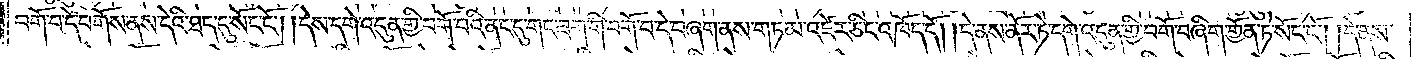བགོ་བ་དེ་བགོས་ནས་དེའི་ཐད་དུ་སོང་ངོ༌། །དེས་དགེ་འདུན་གྱི་བགོ་བའི་ནང་དུ་གང་ཟག་གི་བགོ་བ་དེ་བཞག་ནས་གཏམ་འཛེར་ཅིང་འཁོད་དོ། །དེ་ནས་ནོར་ཏེ་དགེ་འདུན་གྱི་བགོ་བ་ཞིག་གྱོན་ཏེ་སོང་ངོ༌། །དེ་ནས་
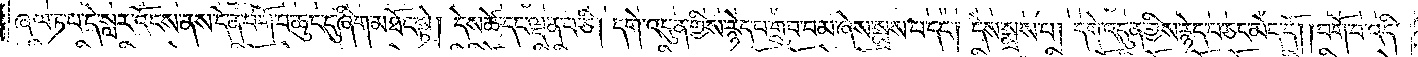ཞལ་ཏ་པ་དེ་སླར་འོངས་ནས་དེ་ན་བགོ་བ་ཆུང་ངུ་ཞིག་མཐོང་སྟེ། དེས་ཚེ་དང་ལྡན་པ་ཅི། དགེ་འདུན་གྱིས་རྙེད་པ་གྲུབ་བམ་ཞེས་སྨྲས་པ་དང༌། དེས་སྨྲས་པ། དགེ་འདུན་གྱིས་རྙེད་པ་ཅང་མེད་དོ། །བགོ་བ་འདི་
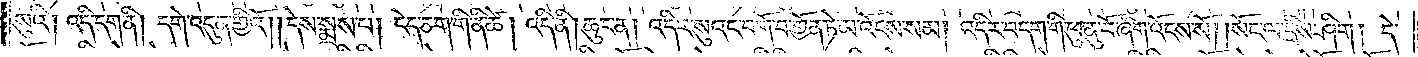སུའི། འདི་དག་ནི། དགེ་འདུན་གྱིའོ། །དེས་སྨྲས་པ། ངེད་ཅག་གི་ནི་ཚེ། འདི་ནི། ཆུང་ན། འདིར་སུའང་བགོ་བ་གྱོན་ཏེ་མ་འོངས་སམ། འདིར་བདག་གི་ཕུ་ནུ་བོ་ཞིག་འོངས་སོ། །སོང་ལ་དྲིས་ཤིག །དེ་
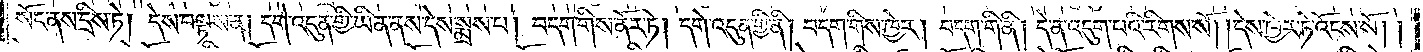སོང་ནས་དྲིས་ཏེ། དེས་བལྟས་ན། དགེ་འདུན་གྱི་ཡིན་ནས་དེས་སྨྲས་པ། བདག་གིས་ནོར་ཏེ། དགེ་འདུན་གྱི་ནི། བདག་གིས་ཁྱེར། བདག་གི་ནི། དེ་ན་འདུག་པའི་རིགས་སོ། །དེས་ཁྱེར་ཏེ་འོངས་སོ། །
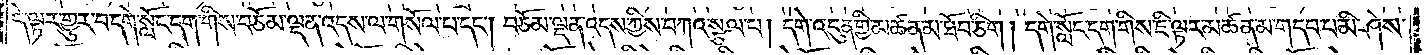དེ་ལྟར་གྱུར་པ་དགེ་སློང་དག་གིས་བཅོམ་ལྡན་འདས་ལ་གསོལ་པ་དང༌། བཅོམ་ལྡན་འདས་ཀྱིས་བཀའ་སྩལ་པ། དགེ་འདུན་གྱི་མཚན་མ་ཐོབ་ཅིག །དགེ་སློང་དག་གིས་ཇི་ལྟར་མཚན་མ་གདབ་པ་མི་ཤེས་
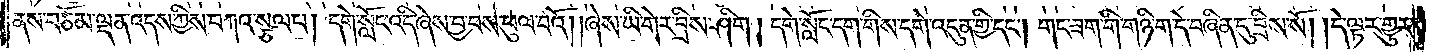ནས་བཅོམ་ལྡན་འདས་ཀྱིས་བཀའ་སྩལ་པ། དགེ་སློང་འདི་ཞེས་བྱ་བས་ཕུལ་བའོ། །ཞེས་ཡི་གེར་བྲིས་ཤིག །དགེ་སློང་དག་གིས་དགེ་འདུན་གྱི་དང༌། གང་ཟག་གི་གཉི་ག་དེ་བཞིན་དུ་བྲིས་སོ། །དེ་ལྟར་གྱུར་
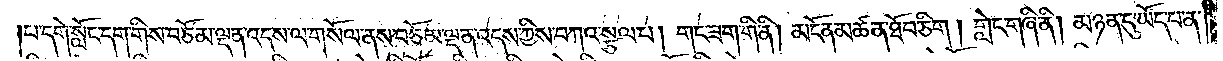པ་དགེ་སློང་དག་གིས་བཅོམ་ལྡན་འདས་ལ་གསོལ་ནས་བཅོམ་ལྡན་འདས་ཀྱིས་བཀའ་སྩལ་པ། གང་ཟག་གི་ནི། མངོན་མཚན་ཐོབ་ཅིག། གླེང་གཞི་ནི། མཉན་དུ་ཡོད་པ་ན་
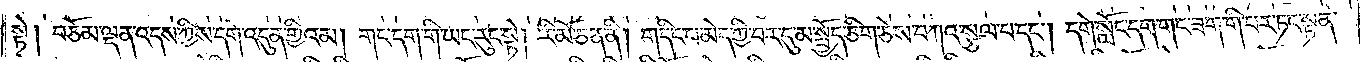སྟེ། བཅོམ་ལྡན་འདས་ཀྱིས་དགེ་འདུན་གྱིའམ། གང་དག་གི་ཡང་རུང་སྟེ། རི་མོ་ཅན་ནི། གདིང་བ་མེད་ཀྱི་བར་དུ་མ་སྤྱོད་ཅིག་ཅེས་བཀའ་སྩལ་པ་དང༌། དགེ་སློང་དག་གང་ཟག་གི་པར་ཏང་སྟན་
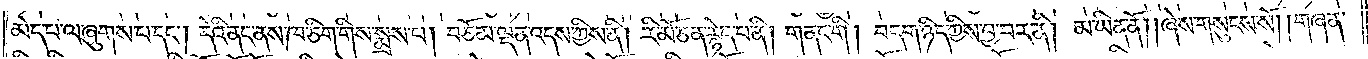མེད་པ་ལ་ཞུགས་པ་དང༌། དེའི་ནང་ནས་ཁ་ཅིག་གིས་སྨྲས་པ། བཅོམ་ལྡན་འདས་ཀྱིས་ནི། རི་མོ་ཅན་རྙེད་པ་ནི། གནང་གི། བདག་ཉིད་ཀྱིས་བྱ་བར་ནི། མ་ཡིན་ནོ། །ཞེས་གསུངས་སོ། །གཞན་
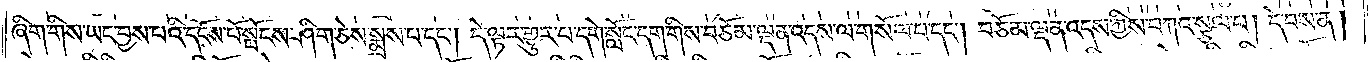ཞིག་གིས་ཡང་བྱས་པའི་དངོས་པོ་སྤོངས་ཤིག་ཅེས་སྨྲས་པ་དང༌། དེ་ལྟར་གྱུར་པ་དགེ་སློང་དག་གིས་བཅོམ་ལྡན་འདས་ལ་གསོལ་པ་དང༌། བཅོམ་ལྡན་འདས་ཀྱིས་བཀའ་སྩལ་པ། དེ་བས་ན།
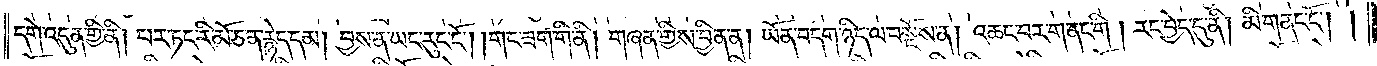དགེ་འདུན་གྱི་ནི། པར་ཏང་རི་མོ་ཅན་རྙེད་དམ། བྱས་ན་ཡང་རུང་ངོ༌། །གང་ཟག་གི་ནི། གཞན་གྱིས་བྱིན་ན། ཡོན་བདག་ཉིད་ལ་བསྔོས་ན། འཆང་བར་གནང་གི། རང་བྱེད་དུ་ནི། མི་གནང་ངོ༌།
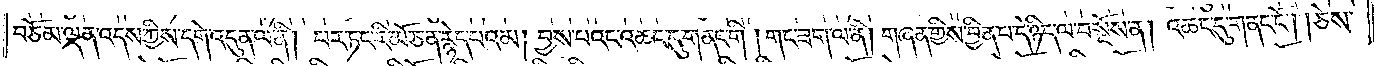བཅོམ་ལྡན་འདས་ཀྱིས་དགེ་འདུན་ལ་ནི། པར་ཏང་རི་མོ་ཅན་རྙེད་པའམ། བྱས་པའང་འཆང་དུ་གནང་གི། གང་ཟག་ལ་ནི། གཞན་གྱིས་བྱིན་པ་དེ་ཉིད་ལ་བསྔོས་ན། འཆང་དུ་གནང་ངོ༌། །ཅེས་
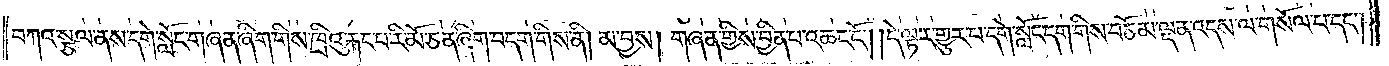བཀའ་སྩལ་ནས་དགེ་སློང་གཞན་ཞིག་གིས་ཁྲིའུ་རྐང་པ་རི་མོ་ཅན་ཞིག་བདག་གིས་ནི། མ་བྱས། གཞན་གྱིས་བྱིན་པ་འཆང་ངོ༌། །དེ་ལྟར་གྱུར་པ་དགེ་སློང་དག་གིས་བཅོམ་ལྡན་འདས་ལ་གསོལ་བ་དང༌།
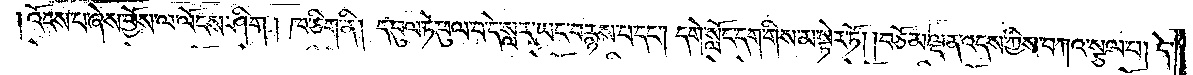འོངས་པ་ཞེས་བྱོས་ལ་ལོངས་ཤིག །ཁ་ཅིག་ནི། དབུལ་ཏེ་ཕུལ་བ་དེ་སླར་ཡང་བརྙས་པ་དང༌། དགེ་སློང་དག་གིས་མ་སྟེར་ཏོ། །བཅོམ་ལྡན་འདས་ཀྱིས་བཀའ་སྩལ་པ། དེ་
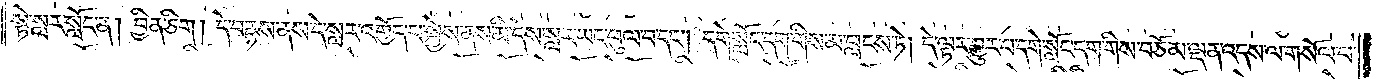སྟེ་སླར་སློང་ན། བྱིན་ཅིག །དེ་བརྙས་ནས་དེ་སླར་འགྱོད་པ་སྐྱེས་ནས་མི་དེས་སླར་ཡང་ཕུལ་བ་དང༌། དགེ་སློང་དག་གིས་མ་བླངས་ཏེ། དེ་ལྟར་གྱུར་པ་དགེ་སློང་དག་གིས་བཅོམ་ལྡན་འདས་ལ་གསོལ་པ་
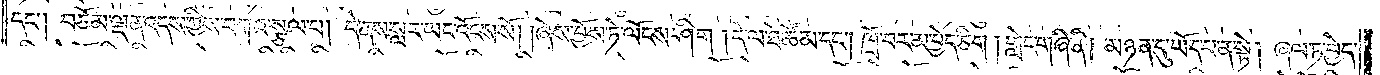དང༌། བཅོམ་ལྡན་འདས་ཀྱིས་བཀའ་སྩལ་པ། དེ་ནས་སླར་ཡང་འོངས་སོ། །ཞེས་བྱོས་ཏེ་ལོངས་ཤིག །དེ་ལ་ཐེ་ཚོམ་དང༌། ཁྲོ་བར་མ་བྱེད་ཅིག །གླེང་གཞི་ནི། མཉན་དུ་ཡོད་པ་ན་སྟེ། ཞལ་ཏ་བྱེད་
